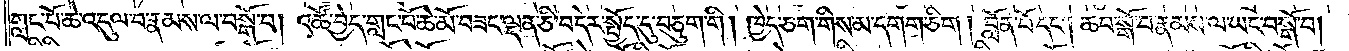གླང་པོ་ཆེ་འདུལ་བ་རྣམས་ལ་བསྒོ་བ། འཚོ་བྱེད་གླང་པོ་ཆེ་མོ་བཟང་ལྡན་ཅི་བདེར་སྤྱོད་དུ་བཅུག་གི །ཁྱེད་ཅག་གིས་མ་དགག་ཅིག །བློན་པོ་དང༌། ཆབ་སྒོ་བ་རྣམས་ལ་ཡང་བསྒོ་བ།
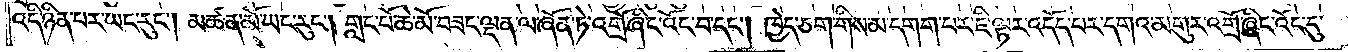འདི་ཉིན་པར་ཡང་རུང༌། མཚན་མོ་ཡང་རུང༌། གླང་པོ་ཆེ་མོ་བཟང་ལྡན་ལ་ཞོན་ཏེ་འགྲོ་ཞིང་འོང་བ་དང༌། ཁྱེད་ཅག་གིས་མ་དགག་པར་ཇི་ལྟར་འདོད་པར་དགའ་མགུར་འགྲོ་ཞིང་འོང་དུ་
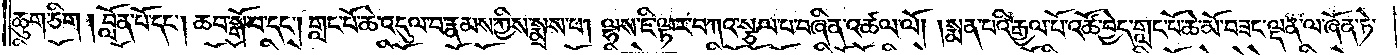ཆུག་ཅིག །བློན་པོ་དང༌། ཆབ་སྒོ་བ་དང༌། གླང་པོ་ཆེ་འདུལ་བ་རྣམས་ཀྱིས་སྨྲས་པ། ལྷས་ཇི་ལྟར་བཀའ་སྩལ་པ་བཞིན་འཚལ་ལོ། །སྨན་པའི་རྒྱལ་པོ་འཚོ་བྱེད་གླང་པོ་ཆེ་མོ་བཟང་ལྡན་ལ་ཞོན་ཏེ་
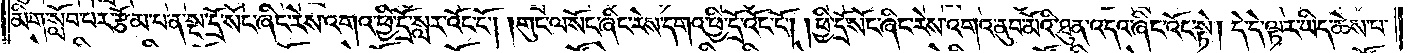མིག་སློབ་པར་རྩོམ་པ་ན་སྔ་དྲོ་སོང་ཞིང་རེས་འགའ་ཕྱི་དྲོ་སླར་འོང་ངོ༌། །གུང་ལ་སོང་ཞིང་རེས་དགའ་ཕྱི་དྲོ་འོང་ངོ༌། །ཕྱི་དྲོ་སོང་ཞིང་རེས་འགའ་ནུབ་མོའི་ཐུན་འདའ་ཞིང་འོང་སྟེ། དེ་དེ་ལྟར་ཡིད་ཆེས་པ་
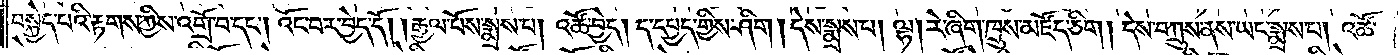བསྐྱེད་པའི་རྟགས་ཀྱིས་འགྲོ་བ་དང༌། འོང་བར་བྱེད་དོ། །རྒྱལ་པོས་སྨྲས་པ། འཚོ་བྱེད། ད་དཔྱད་གྱིས་ཤིག །དེས་སྨྲས་པ། ལྷ། རེ་ཞིག་ཁྲུས་མཛོད་ཅིག །དེས་བཀྲུས་ནས་ཡང་སྨྲས་པ། འཚོ་
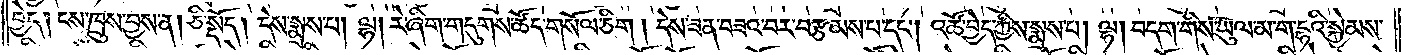བྱེད། ངས་ཁྲུས་བྱས་ན། ཅི་སྡོད། དེས་སྨྲས་པ། ལྷ། རེ་ཞིག་གདུགས་ཚོད་གསོལ་ཅིག །དེས་ཟན་བཟའ་བར་བརྩམས་པ་དང༌། འཚོ་བྱེད་ཀྱིས་སྨྲས་པ། ལྷ། བདག་གིས་ཡུལ་མ་ག་དྷའི་སྐྱེམས་
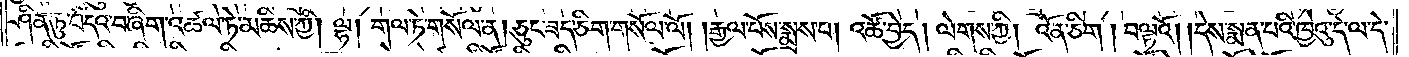ཤིན་ཏུ་བདའ་བ་ཞིག་འཚལ་ཏེ་མཆིས་ཀྱི། ལྷ། གལ་ཏེ་གསོལ་ན། ཅུང་ཟད་ཅིག་གསོལ་ལོ། །རྒྱལ་པོས་སྨྲས་པ། འཚོ་བྱེད། ལེགས་ཀྱི། འོན་ཅིག། བལྟའོ། །དེས་སྨན་པའི་ཁྱེའུ་དེ་ལ་དེ་
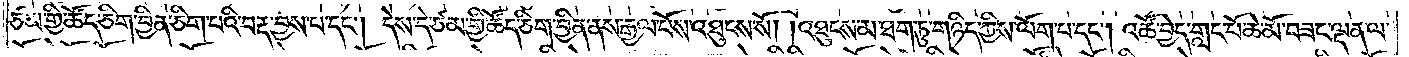ཙམ་གྱི་ཚོད་ཅིག་བྱིན་ཅིག་པའི་བརྡ་བྱས་པ་དང༌། དེས་དེ་ཙམ་གྱི་ཚོད་ཅིག་བྱིན་ནས་རྒྱལ་པོས་འཐུངས་སོ། །འཐུངས་མ་ཐག་ཏུ་གཉིད་ཀྱིས་ལོག་པ་དང༌། འཚོ་བྱེད་གླང་པོ་ཆེ་མོ་བཟང་ལྡན་ལ་
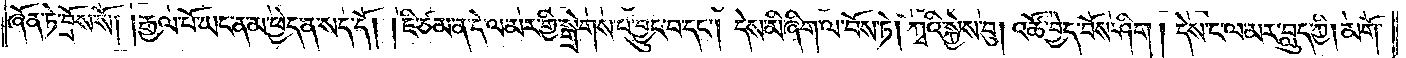ཞོན་ཏེ་བྲོས་སོ། །རྒྱལ་པོ་ཡང་ན་མ་ཕྱེད་ན་སད་དོ། །ཇི་ཙམ་ན་དེ་ལ་མར་གྱི་སྒྲེགས་པ་བྱུང་བ་དང༌། དེས་མི་ཞིག་ལ་བོས་ཏེ། ཀྭའི་སྐྱེས་བུ། འཚོ་བྱེད་བོས་ཤིག །དེས་ང་ལ་མར་བླུད་ཀྱི། མགོ་
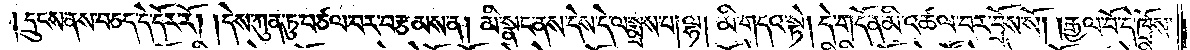དྲུངས་ནས་བཅད་དེ་དོར་རོ། །དེས་ཀུན་ཏུ་བཙལ་བར་བརྩམས་ན། མི་སྣང་ནས་དེས་དེ་ལ་སྨྲས་པ། ལྷ། མི་གདའ་སྟེ། དེ་གདོན་མི་འཚལ་བར་བྲོས་སོ། །རྒྱལ་པོ་དེ་ཁྲོས་
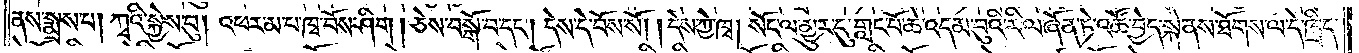ནས་སྨྲས་པ། ཀྭའི་སྐྱེས་བུ། འཕར་མ་པ་ཁྭ་བོས་ཤིག །ཅེས་བསྒོ་བ་དང༌། དེས་དེ་བོས་སོ། །དེས་ཀྱེ་ཁྭ། སོང་ལ་མྱུར་དུ་གླང་པོ་ཆེ་འདམ་བུའི་རི་ལ་ཞོན་ཏེ་འཚོ་བྱེད་སྐེ་ནས་ཐོགས་ལ་དེ་ཁྲིད་
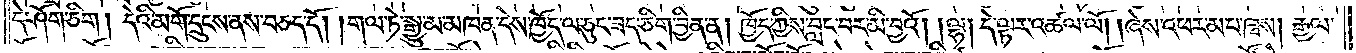དེ་ཤོག་ཅིག། དེའི་མགོ་དྲུངས་ནས་བཅད་དོ། །གལ་ཏེ་སྒྱུ་མ་མཁན་དེས་ཁྱོད་ལ་ཅུང་ཟད་ཅིག་བྱིན་ན། ཁྱོད་ཀྱིས་བླང་བར་མི་བྱའོ། །ལྷ། དེ་ལྟར་འཚལ་ལོ། །ཞེས་འཕར་མ་པ་ཁྭས། རྒྱལ་
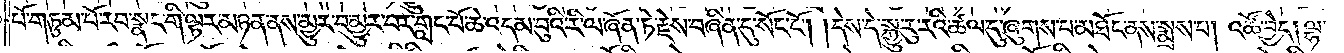པོ་གཏུམ་པོ་རབ་སྣང་གི་ལྟར་མཉན་ནས་མྱུར་བ་མྱུར་བར་གླང་པོ་ཆེ་འདམ་བུའི་རི་ལ་ཞོན་ཏེ་རྗེས་བཞིན་དུ་སོང་ངོ༌། །དེས་དེ་སྐྱུ་རུ་རའི་ཚལ་དུ་ཞུགས་པ་མཐོང་ནས་སྨྲས་པ། འཚོ་བྱེད། ལྷ་
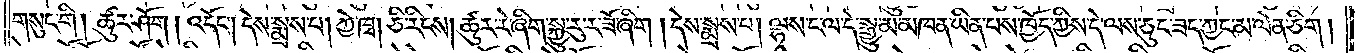གསུང་གི། ཚུར་ཤོག། འདོང༌། དེས་སྨྲས་པ། ཀྱེ་ཁྭ། ཅི་རིངས། ཚུར་རེ་ཞིག་སྐྱུ་རུ་ར་ཟོ་ཞིག། དེས་སྨྲས་པ། ལྷས་ང་ལ་དེ་སྒྱུ་མ་མཁན་ཡིན་པས་ཁྱོད་ཀྱིས་དེ་ལས་ཅུང་ཟད་ཀྱང་མ་ལེན་ཅིག།
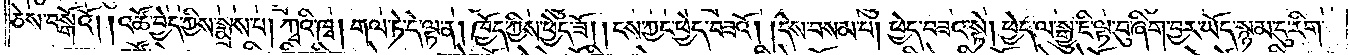ཅེས་བསྒོའོ། །འཚོ་བྱེད་ཀྱིས་སྨྲས་པ། ཀྭའི་ཁྭ། གལ་ཏེ་དེ་ལྟ་ན། ཁྱོད་ཀྱིས་ཕྱེད་ཟོ། །ངས་ཀྱང་ཕྱེད་བཟའོ། །དེས་བསམ་པ། ཕྱེད་བཟའ་སྟེ། ཕྱེད་ལ་སྒྱུ་ཇི་ལྟ་བུ་ཞིག་བྱར་ཡོད་སྙམ་དུ་རིག་
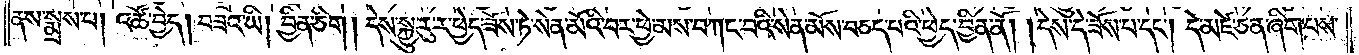ནས་སྨྲས་པ། འཚོ་བྱེད། བཟའ་ཡི། བྱིན་ཅིག། དེས་སྐྱུ་རུ་ར་ཕྱེད་ཟོས་ཏེ་སེན་མོའི་བར་ཕྱེ་མས་བཀང་བའི་སེན་མོས་བཅད་པའི་ཕྱེད་བྱིན་ནོ། །དེས་དེ་ཟོས་པ་དང༌། དེ་མཛེ་ཅན་ཞིག་པས་
